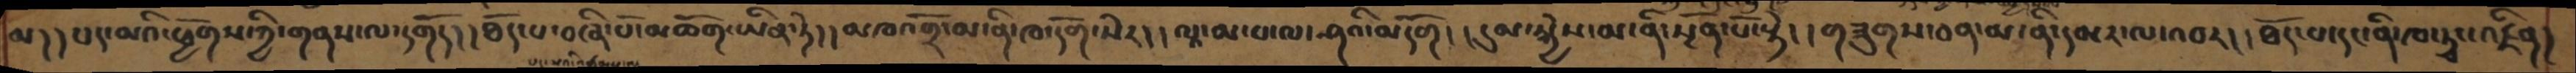མ།།པད་མའི་ཕྱོགས་ཀྱི་གནས་ལ་དགོད།ཐོད་པ་བཞི་པོ་མཆོག་ཡིན་ཏེ།།མཁའགྲོ་མ་ནི་ཁ་དོག་སེར།།ལཱ་མ་པ་ལ་ཤའི་མདོག།།དུམ་སྐྱེས་མ་ནི་སྔོན་པོ་སྟེ།།གཟུགས་ཅན་མ་ནི་དམར་ལ་འབར།།ཐོད་པ་དང་ནི་ཁ་ཏྭང་འཛིན།
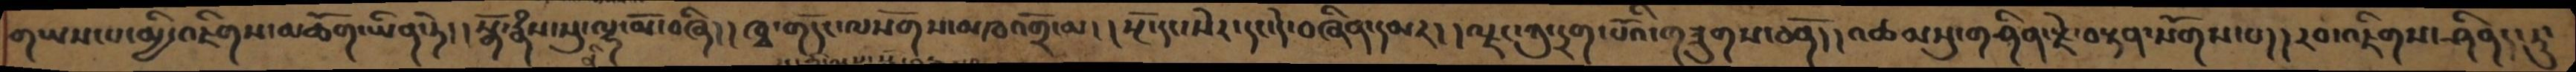གཡས་པ་མྱི་འཇིགས་མཆོག་ཡིན་ཏེ།།སྒོ་རྣཾས་སུ་ནི་ལྷ་མོ་བཞི།།ཁྭ་གདོང་ལསོགས་མཁའགྲོ་མ།།སྔོ་དང་སེར་དང་དེ་བཞིན་དམར།།ལྗང་ཀུ་དྲག་པོའི་གཟུགས་ཅནོ།།འཚམསུ་གཤིན་རྗེ་བསྟན་སོགས་པ།།རབ་འཇིགས་ཤིནད་ཏུ་
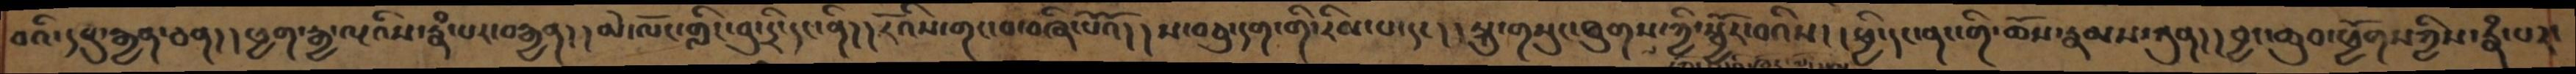བའི་དབུ་རྒྱན་ཅན།།ཕྱག་རྒྱ་ལྔའིས་རྣཾ་པར་བརྒྱན།།མེ་ལོང་གླིང་བུ་དྲི་དང་ནི།།རོའིས་གང་བ་བཞི་པོའོ།།ས་བཅུ་དག་གི་རིམ་པ་དང།།སྐུ་གསུང་ཐུགས་ཀྱི་སྦྱོར་བའིས།།ཕྱི་དང་ནང་གི་ཆོས་རྣམས་ཀུན།།བྱང་ཆུབ་ཕྱོགས་ཀྱིས་རྣཾ་པར་
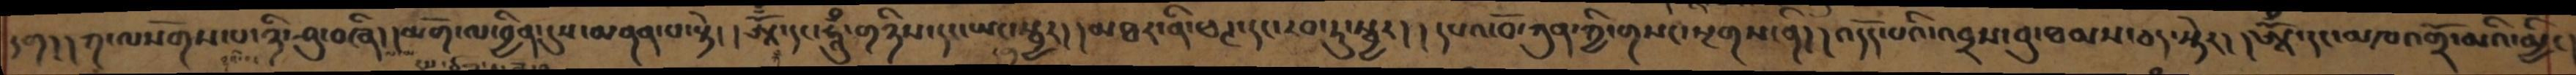དག།།ཀ་ལསོགས་པ་ཉི་ཤུ་བཞི།།མགོ་ལ་བྱིན་དུས་མནན་པ་སྟེ།།ཨཱོྃ་དང་ཧཱུྃ་གཉིས་དང་ཡང་སྦྱར།།།མཐར་ནི་ཕཊ་དང་རབ་ཏུ་སྦྱར།།དཔའ་བོ་ཀུན་ཀྱི་གསང་སྔགས་ནི།།འདོད་པའི་འབྲས་བུ་ཐམས་ཅད་སྟེར།།ཨཱོྃ་དང་མཁའགྲོ་མའི་མྱི་
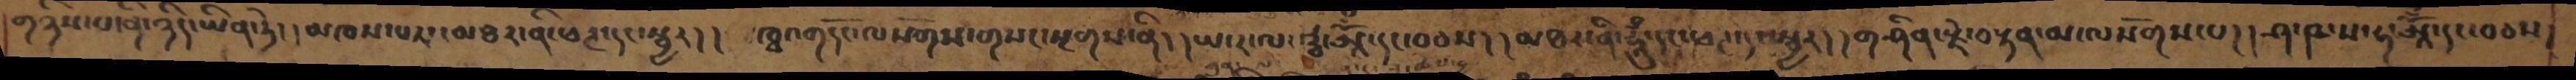གཉིས་པ་ནི་ཉིད་ཡིན་ཏེ།།མཁས་པར་མཐར་ནི་ཕཊ་དང་སྦྱར།། ཁྭ་གདོང་ལསོགས་གསང་སྔགས་ནི།།ཡ་ར་ལ་ཝ་ཨཱོྃ་དང་བཅས།།མཐར་ནི་ཧཱུྃ་དང་ཕཊ་དང་སྦྱར།། གཤིན་རྗེ་བསྟན་མ་ལསོགས་པ།།ཤ་ཥ་ས་ཧ་ཨཱོྃ་དང་བཅས།
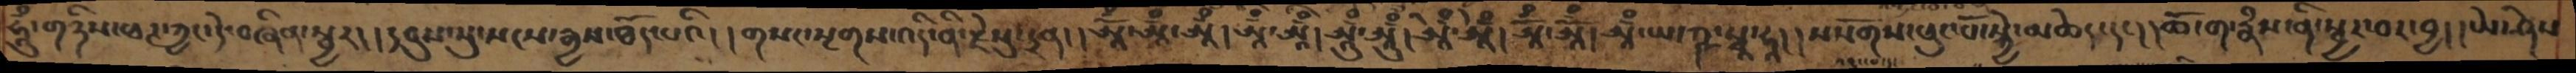ཧཱུྃ་གཉིས་ཕཊ་ཀྱང་དེ་བཞིན་སྦྱར།།དབུས་སུ་སངས་རྒྱས་ཐོད་པའིས།།གསང་སྔགས་འདི་ནི་རྗེསུ་དྲན།།ཨཱོྃ་ཨཱྃ་ཨཱྃ།ཨཱྃ་ཨཱྃ།ཨཱུྃ་ཨཱུྃ།ཨཱེྃ་ཨཱེྃ། ཨཱོྃ་ཨཱོྃ། ཨཱྃ་ཡ་ཀྵ་སྭཱ་ཧཱ།།ས་སོགས་ཕུང་པོ་སྐྱེ་མཆེད་དང།།ཆོ་ག་རྣཾས་ནི་སྦྱར་བར་བྱ།།ཡེ་ཤེས
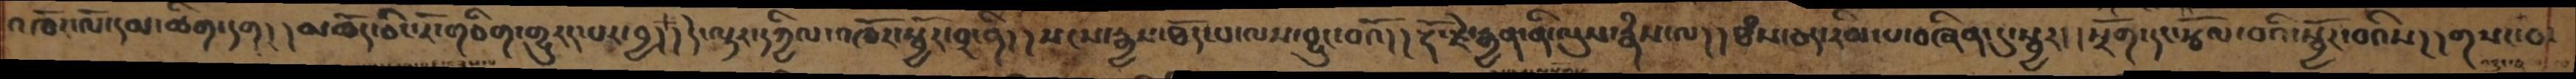འཁོར་ལོ་དམ་ཚིག་དག།།མཆོད་ཅིང་རོ་གཅིག་གྱུརད་པར་བྱ།།དེ་ལྟར་དཀྱིལ་འཁོར་སྦྱོར་བར་ནི།།སངས་རྒྱས་ཐོད་པ་ལས་བྱུང་བའོ།།རྡོ་རྗེ་རྒྱན་ནི་ལུས་རྣཾས་ལ།།ཐཾས་ཅད་རིམ་པ་བཞིན་དུ་སྦྱར།།སྲོག་དང་རྩོལ་བའི་སྦྱོར་བའིས།།གསང་བ
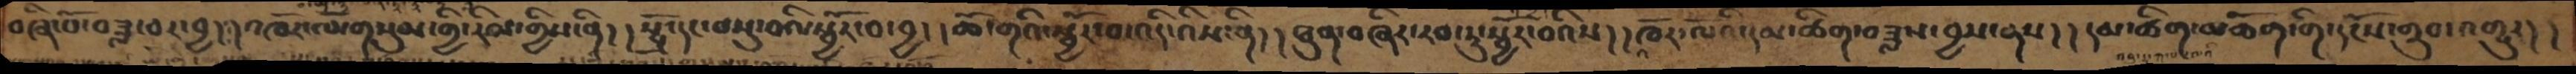བཞི་པོ་བཟླ་བར་བྱ།།འཁོར་ལོ་གསུམ་གྱི་རིམ་གྱིས་ནི།། སྤྲོ་དང་བསྡུ་བའི་སྦྱོར་བ་བྱ།། ཆོ་གའི་སྦྱོར་བ་འདི་འིས་ནི།།ཐུན་བཞིར་རབ་ཏུ་སྦྱོར་བའིས།།འཁོར་ལོའི་དམ་ཚིག་བཟླས་བྱས་ནས།།དམ་ཚིག་མཆོག་གི་དངོས་གྲུབ་འགྱུར།།
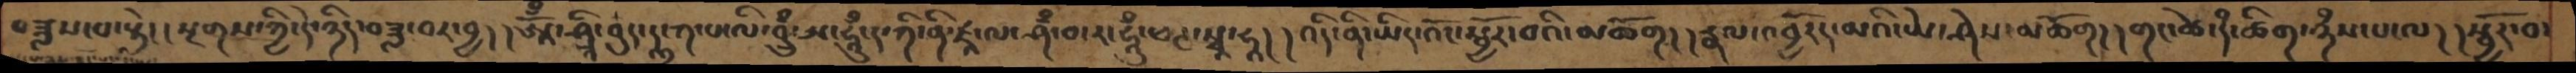བཟླས་པ་སྟེ།།སྔགས་ཀྱི་དེ་ཉིད་བཟླ་བར་བྱ།།ཨཱོྃ་ཤྲཱི་བུད་དྷ་ཀ་པ་ལི་བྷྲུྃ་ཨ་ཧཱུྃ་ཌ་ཀི་ནི་ཛཱ་ལ་ཤྃ་བ་ར་ཧཱུྃ་ཕཊ་སྭཱ་ཧཱ།།འདི་ནི་ཡིད་འོང་སྦྱོར་བའི་མཆོག།།རྣལ་འབྱོརད་མའི་ཡེ་ཤེས་མཆོག།།གང་ཚེ་དཾ་ཚིག་ཉཾས་པ་ལ།།སྦྱོར་བ་
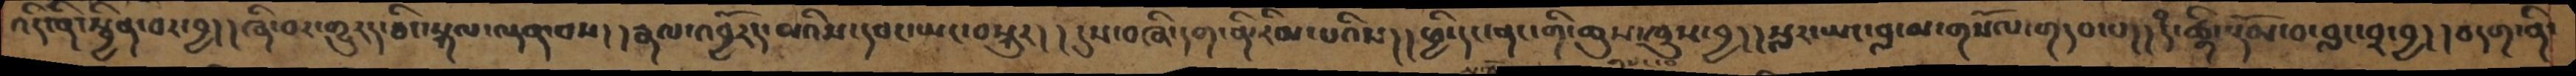འདི་ནི་སྦྱིན་བར་བྱ།།ཞི་བར་གྱུརད་ཅིང་སྐལ་ལྡན་བས།།རྣལ་འབྱོརདམའིས་དབང་ཡང་བསྐུར། །དུས་བཞི་དག་ནི་རིམ་པའིས། །ཕྱི་དང་ནང་གི་ཆུས་ཁྲུས་བྱ། །སླར་ཡང་བླ་མ་གསོལ་གདབ་པ། །དྃ་ཚིག་སྡོམ་བ་བླང་བར་བྱ།།བདག་ནི་
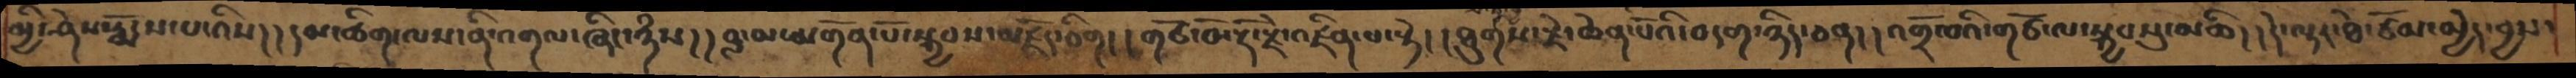མྱི་ཤེས་རྨོངས་པ་འིས།།དམ་ཚིག་ལས་ནི་འགལ་ཞིང་ཉཾས།།བླ་མ་མགོན་པོ་སྐྱབས་མཛོད་ཅིག།།གཙོ་བོ་རྡོ་རྗེ་འཛིན་པ་སྟེ།།ཐུགས་རྗེ་ཆེན་པོའི་བདག་ཉིད་ཅན།།འགྲོ་བའི་གཙོ་ལ་སྐྱབསུ་མཆི།།དེ་ལྟར་ཐེ་ཙོམ་མྱེད་བྱས་
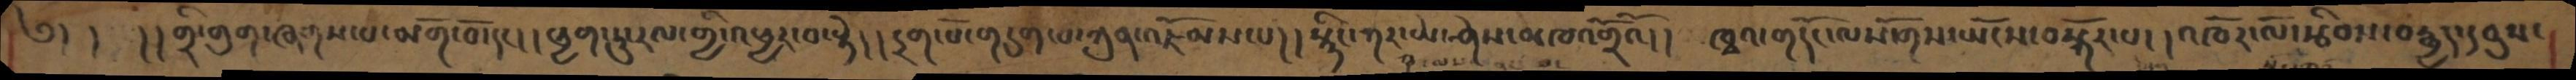༄། །  །།གྲི་གུག་ཞགས་པ་མགོ་བོ་དང།།ཕྱག་ཏུ་རལ་གྱི་འཕྱར་བ་སྟེ། དྲག་པོ་གདུག་པ་ཀུན་འཇོམས་པ།།སྙིང་ཀར་ཡེ་ཤེས་མཁའགྲོའོ། ཁྭའ་གདོང་ལསོགས་ཡོངས་བསྐོར་པ།།འཁོར་ལོ་རྩིབས་བརྒྱད་དབུས་
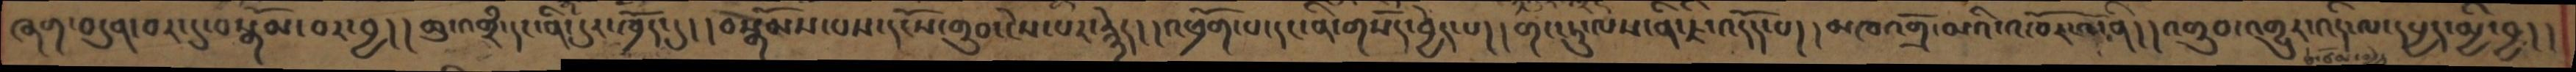ཞག་བདུན་བར་དུ་བསྒོམ་བར་བྱ།།ཆུ་འགྲཾ་དང་ནི་དུར་ཁྲོད་དུ།།བསྒོམས་པས་དངོས་གྲུབ་ངེས་པར་རྙེད།།འཕྲོག་པ་དང་ནི་གསོད་བྱེད་པ།།གང་ཏུ་ལས་ནི་ཇི་འདོད་པ།།མཁའགྲོ་མའི་འཁོར་ལོ་ནི།།འགྲུབ་འགྱུར་འདི་ལ་དཔྱད་མྱི་བྱ།།
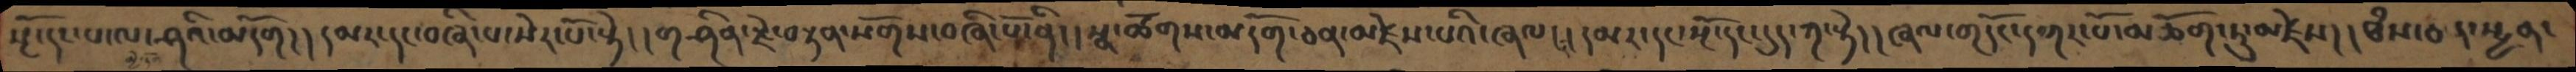སྔོ་དང་པ་ལ་ཤའི་མདོག།།དམར་དང་བཞི་པ་སེར་པོ་སྟེ།།གཤིན་རྗེ་བསྟན་སོགས་བཞི་པོ་ནི།།སྣ་ཚོགས་མདོག་ཅན་མཛེས་པའི་ཞལ།།དམར་དང་སྔོ་དང་དུད་ཀ་སྟེ།།ཞལ་གདོང་དཀར་པོ་མཆོག་ཏུ་མཛེས།།ཐཾས་ཅད་སྤྱན་
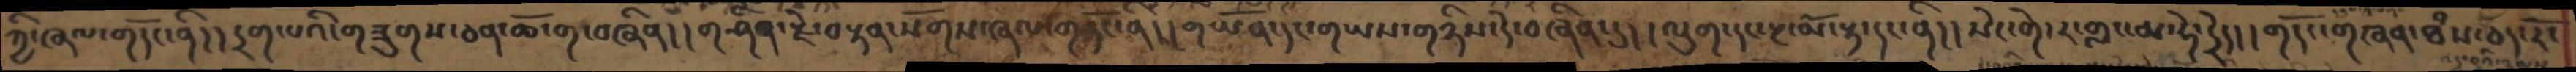ཀྱི་ཞལ་གདོང་ནི།།དྲག་པའི་གཟུགས་ཅན་ཆོ་ག་བཞིན།།གཤིན་རྗེ་བསྟན་སོགས་ཞལ་གདོང་ནི།།གཡོན་དང་གཡས་གཉིས་དེ་བཞིན་དུ།།ལུག་དང་རྔ་མོ་རྟ་དང་ནི།།སེང་གེ་ར་གླང་མ་ཧེ་དྲེད།།གདོང་གཞན་ཐཾས་ཅད་རོ་
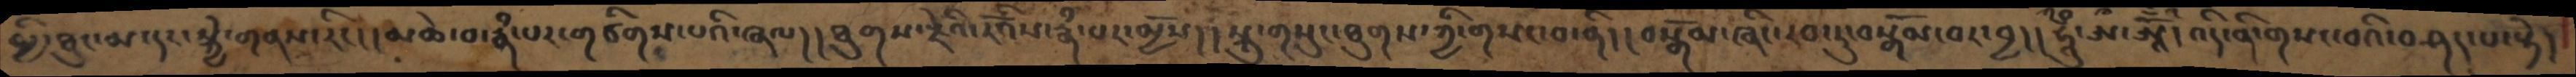མྱི་ཐུང་མ་དང་སྐྱེ་གནས་རིང།།མཆེ་བ་རྣཾ་པར་གཙིགས་པའི་ཞལ།།ཐུགས་རྗེའི་རོའིས་རྣཾ་པར་མྱོས།།སྐུ་གསུང་ཐུགས་ཀྱི་གསང་བ་ནི།།བསྒོམ་ཞིང་རབ་ཏུ་བསྒོམ་བར་བྱ།།ཧཱུྃ་ཨྃ་ཨཱོྃ།འདི་ནི་གསང་བའི་བཤད་པ་སྟེ།
